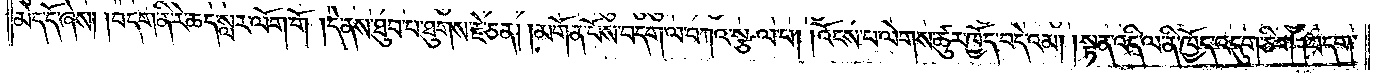མེད་དོ་ཞེས། །བདག་ནི་རེ་ཆད་སླར་ལོག་གོ །དེ་ནས་ཐུབ་པ་ཐུགས་རྗེ་ཅན། །མགོན་པོས་བདག་ལ་བཀའ་སྩལ་པ། །འོངས་པ་ལེགས་ཚུར་ཁྱོད་བདེ་འམ། །སྟན་འདི་ལ་ནི་ཁྱོད་འདུག་ཅིག །བདག་
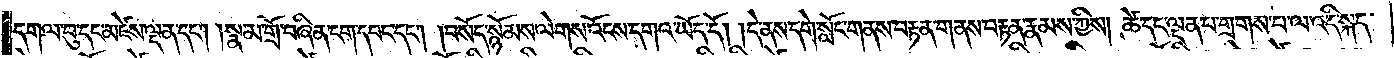དགལ་བུ་དང་མཛེས་ལྡན་དང༌། །སྣ་མ་གྲོ་བཞིན་ངག་དབང་དང༌། །བསོད་སྙོམས་ལེགས་འོངས་དགའ་ཡོད་དོ། །དེ་ནས་དགེ་སློང་གནས་བརྟན་གནས་བརྟན་རྣམས་ཀྱིས། ཚེ་དང་ལྡན་པ་གྲགས་པ་ལ་འདི་སྐད་
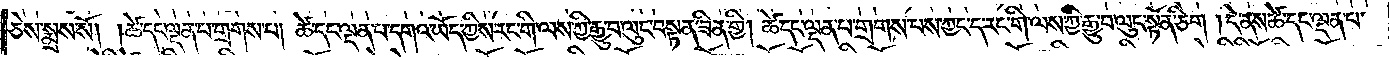ཅེས་སྨྲས་སོ། །ཚེ་དང་ལྡན་པ་གྲགས་པ། ཚེ་དང་ལྡན་པ་དགའ་ཡོད་ཀྱིས་རང་གི་ལས་ཀྱི་རྒྱུ་བ་ལུང་བསྟན་ཟིན་གྱི། ཚེ་དང་ལྡན་པ་གྲགས་པས་ཀྱང་ད་རང་གི་ལས་ཀྱི་རྒྱུ་བ་ལུང་སྟོན་ཅིག །དེ་ནས་ཚེ་དང་ལྡན་པ་
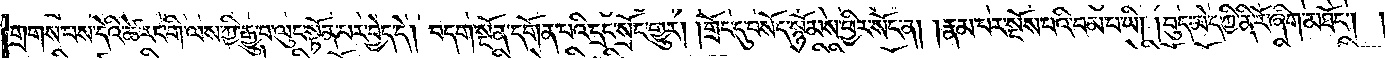གྲགས་པས་དེའི་ཚེ་རང་གི་ལས་ཀྱི་རྒྱུ་བ་ལུང་སྟོན་པར་བྱེད་དེ། བདག་སྔོན་དགོན་པའི་དྲང་སྲོང་གྱུར། །གྲོང་དུ་བསོད་སྙོམས་ཕྱིར་སོང་ན། །རྣམ་པར་སྔོས་པའི་བམ་པ་ཡི། །བུད་མེད་ཀྱི་ནི་རོ་ཞིག་མཐོང༌། །
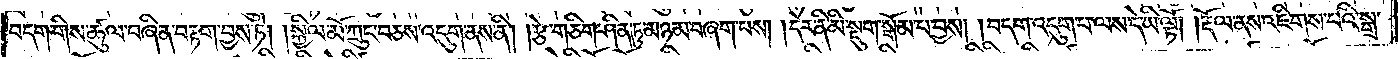བདག་གིས་ཚུལ་བཞིན་བརྟག་བྱས་ཏེ། །སྐྱིལ་མོ་ཀྲུང་བཅས་འདུག་ནས་ནི། །རྩེ་གཅིག་ཤིན་ཏུ་མཉམ་བཞག་པས། །དེར་ནི་མི་སྡུག་སྒོམ་པ་བྱས། །བདག་འདུག་པ་ལས་དེ་ཡི་ལྟོ། །རྡོལ་ནས་འཇིགས་པའི་སྒྲ་
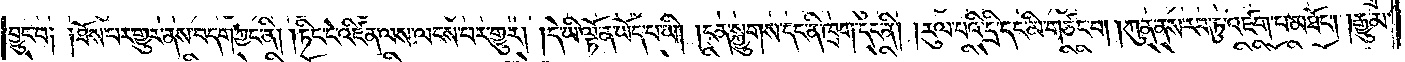བྱུང་བ༑ ༑ཐོས་པར་གྱུར་ནས་བདག་ཀྱང་ནི། །ཏིང་ངེ་འཛིན་ལ་ལངས་པར་གྱུར། །དེ་ཡི་ལྟོ་ན་ཡོད་པ་ཡི། །ངན་སྐྱུགས་དང་ནི་ཁྲག་དང་ནི། །རུལ་པའི་དྲི་དང་མི་གཙང་བ། །ཀུན་ནས་རབ་ཏུ་འཛག་པ་མཐོང༌། །རྒྱུ་མ་
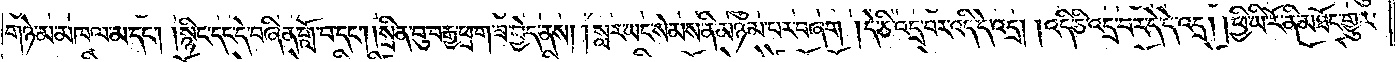གཉེ་མ་མཁལ་མ་དང༌། །སྙིང་དང་དེ་བཞིན་གློ་བ་དང༌། །སྲིན་བུ་བརྒྱ་ཕྲག་ཟ་བྱེད་ནས། །སླར་ཡང་སེམས་ནི་མཉམ་པར་བཞག །དེ་ཅི་འདྲ་བར་འདི་དེ་འདྲ། །འདི་ཅི་འདྲ་བར་དེ་དེ་འདྲ། །ཕྱི་ཡི་རོ་ནི་མཐོང་གྱུར་
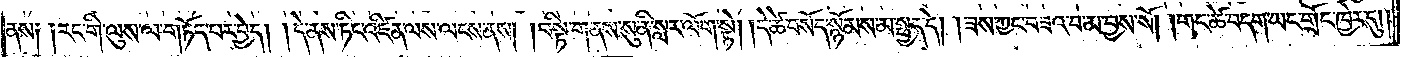ནས༑ ༑རང་གི་ལུས་ལ་གཏོད་པར་བྱེད། །དེ་ནས་ཏིང་འཛིན་ལས་ལངས་ནས། །བསྟི་གནས་སུ་ནི་སླར་ལོག་སྟེ། །དེ་ཚེ་བསོད་སྙོམས་མ་སྤྱད་དེ། །ཟས་ཀྱང་བཟའ་བ་མ་བྱས་སོ། །གང་ཚེ་བདག་ཡང་གྲོང་ཁྱེར་དུ༎
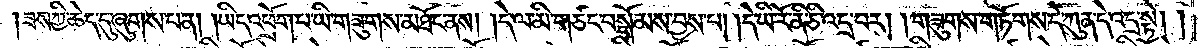ཟས་ཀྱི་ཆེད་དུ་ཞུགས་པ་ན། །ཡིད་འཕྲོག་པ་ཡི་གཟུགས་མཐོང་ནས། །དེ་ལ་མི་གཙང་བསྒོམས་བྱས་པ། །དེ་ཡི་རོ་ནི་ཅི་འདྲ་བར། །གཟུགས་གཏོགས་དེ་ཀུན་དེ་འདྲ་སྟེ། །
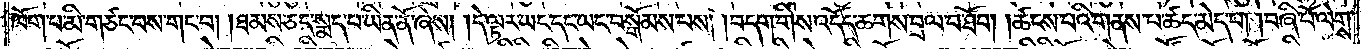ཁོག་པ་མི་གཙང་བས་གང་བ། །ཐམས་ཅད་སྨད་པ་ཡིན་ནོ་ཞེས། །དེ་ལྟར་ཡང་དང་ཡང་བསྒོམས་པས། །བདག་གིས་འདོད་ཆགས་བྲལ་བ་ཐོབ། །ཚངས་པའི་གནས་པ་ཚད་མེད་པ། །བཞི་པོ་ལེགས་
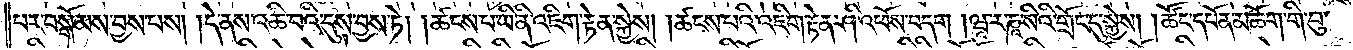པར་བསྒོམས་བྱས་པས། །དེ་ནས་འཆི་བའི་དུས་བྱས་ཏེ། །ཚངས་པ་ཡི་ནི་འཇིག་རྟེན་སྐྱེས། །ཚངས་པའི་འཇིག་རྟེན་ཤི་འཕོས་བདག །ཝཱ་ར་ཎཱ་སིའི་གྲོང་དུ་སྐྱེས། །ཚོང་དཔོན་མཆོག་གི་བུ་
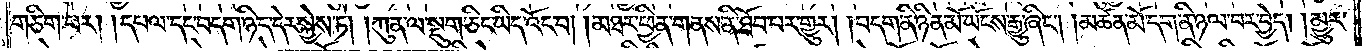གཅིག་པར། །དཔལ་དང་བདག་ཉིད་དེར་སྐྱེས་ཏེ། །ཀུན་ལ་སྡུག་ཅིང་ཡིད་འོང་བ། །མཐར་ཕྱིན་གནས་ནི་ཐོབ་པར་གྱུར། །བདག་ནི་ཉིན་མོ་ཡོངས་རྒྱུ་ཞིང༌། །མཚན་མོ་དག་ཉི་ཉལ་བར་བྱེད། །མྱུར་
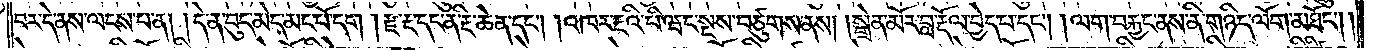བར་དེ་ནས་ལངས་པ་ན། །དེ་ན་བུད་མེད་མང་པོ་དག། །རྫ་རྔ་དང་ནི་རྔ་ཆེན་དང༌། །འཁར་རྔའི་པི་ཝང་སྔས་བཙུགས་ནས། །སྒྲེན་མོར་བླ་རྡོལ་བྱེད་པ་དང༌། །ལག་བརྐྱང་ནས་ནི་གཉིད་ལོག་མཐོང༌༎
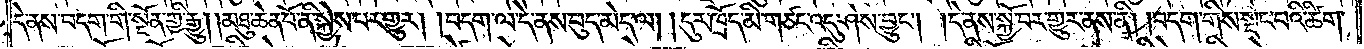དེ་ནས་བདག་གི་སྔོན་གྱི་རྒྱུ། །མཐུ་ཆེན་པོ་ནི་སྐྱེས་པར་གྱུར། །བདག་ལ་དེ་ནས་བུད་མེད་ལ། །དུར་ཁྲོད་མི་གཙང་འདུ་ཤེས་བྱུང༌། །དེ་ནས་སྐྱོ་བར་གྱུར་ནས་ནི། །བདག་གིས་སྡང་བའི་ཚིག་
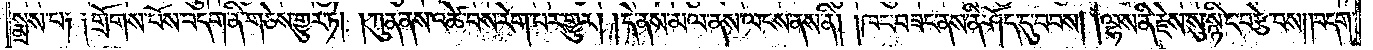སྨྲས་པ༑ ༑གྲོགས་པོས་བདག་ནི་གཅེས་གྱུར་ཏེ། །ཀུན་ནས་འཚེ་བས་རེག་པར་གྱུར། །དེ་ནས་མལ་ནས་ལངས་ནས་ནི། །ཁང་བཟང་ནས་ནི་ཤོད་དུ་བབས། །ལྷས་ནི་རྗེས་སུ་སྙིང་བརྩེ་བས། །བདག་
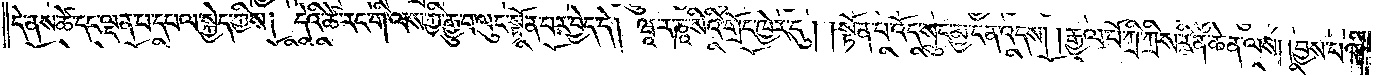དེ་ནས་ཚེ་དང་ལྡན་པ་དཔལ་སྐྱེད་ཀྱིས། དེའི་ཚེ་རང་གི་ལས་ཀྱི་རྒྱུ་བ་ལུང་སྟོན་པར་བྱེད་དེ། ཝཱ་ར་ཎཱ་སིའི་གྲོང་ཁྱེར་དུ། །སྟོན་པ་འོད་སྲུང་མྱ་ངན་འདས། །རྒྱལ་པོ་ཀྲི་ཀྲིས་རིན་ཆེན་ལས། །བྱས་པའི་
